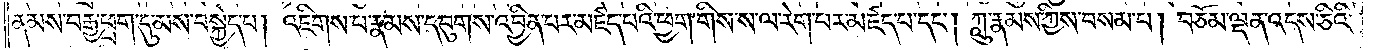ནམས་བརྒྱ་ཕྲག་དུ་མས་བསྐྱེད་པ། འཇིགས་པ་རྣམས་དབུགས་འབྱིན་པར་མཛད་པའི་ཕྱག་གིས་ས་ལ་རེག་པར་མཛད་པ་དང༌། ཀླུ་རྣམས་ཀྱིས་བསམ་པ། བཅོམ་ལྡན་འདས་ཅིའི་
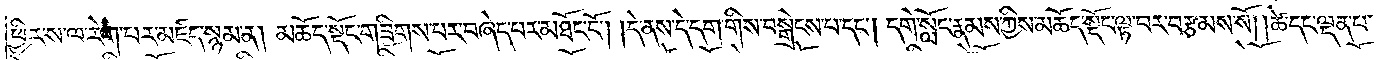ཕྱིར་ས་ལ་རེག་པར་མཛད་སྙམ་ན། མཆོད་སྡོང་གཟིགས་པར་བཞེད་པར་མཐོང་ངོ༌། །དེ་ནས་དེ་དག་གིས་བསྒྲེངས་པ་དང༌། དགེ་སློང་རྣམས་ཀྱིས་མཆོད་སྡོང་ལྟ་བར་བརྩམས་སོ། །ཚེ་དང་ལྡན་པ་
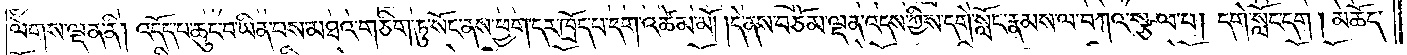ལེགས་ལྡན་ནི། འདོད་པ་ཆུང་བ་ཡིན་པས་མཐའ་གཅིག་ཏུ་སོང་ནས་ཕྱག་དར་ཁྲོད་པ་དག་འཚེམ་མོ། །དེ་ནས་བཅོམ་ལྡན་འདས་ཀྱིས་དགེ་སློང་རྣམས་ལ་བཀའ་སྩལ་པ། དགེ་སློང་དག །མཆོད་
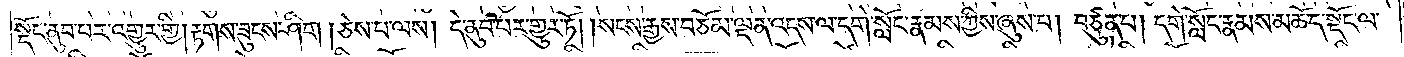སྡོང་ནུབ་པར་འགྱུར་གྱི། རྟགས་ཟུངས་ཤིག །ཅེས་པ་ལས། དེ་ནུབ་པར་གྱུར་ཏོ། །སངས་རྒྱས་བཅོམ་ལྡན་འདས་ལ་དགེ་སློང་རྣམས་ཀྱིས་ཞུས་པ། བཙུན་པ། དགེ་སློང་རྣམས་མཆོད་སྡོང་ལ་
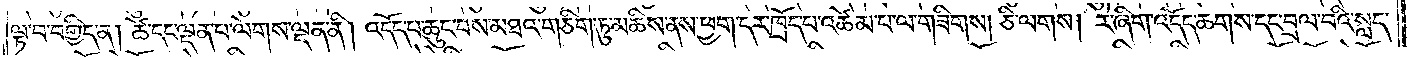ལྟ་བ་བགྱིད་ན། ཚེ་དང་ལྡན་པ་ལེགས་ལྡན་ནི། འདོད་པ་ཆུང་བས་མཐའ་གཅིག་ཏུ་མཆིས་ནས་ཕྱག་དར་ཁྲོད་པ་འཚེམ་པ་ལ་གཟིགས། ཅི་ལགས། རེ་ཞིག་འདོད་ཆགས་དང་བྲལ་བའི་སླད་
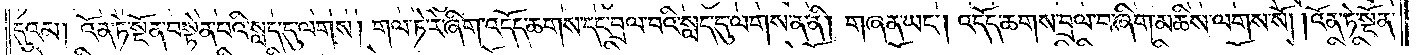དུའམ། འོན་ཏེ་སྔོན་བསྟེན་པའི་སླད་དུ་ལགས། གལ་ཏེ་རེ་ཞིག་འདོད་ཆགས་དང་བྲལ་བའི་སླད་དུ་ལགས་ན་ནི། །གཞན་ཡང༌། འདོད་ཆགས་བྲལ་བ་ཞིག་མཆིས་ལགས་སོ། །འོན་ཏེ་སྔོན་
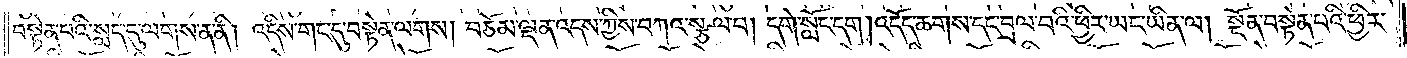བསྟེན་པའི་སླད་དུ་ལགས་ན་ནི། འདིས་གང་དུ་བསྟེན་ལགས། བཅོམ་ལྡན་འདས་ཀྱིས་བཀའ་སྩལ་པ། དགེ་སློང་དག །འདོད་ཆགས་དང་བྲལ་བའི་ཕྱིར་ཡང་ཡིན་ལ། སྔོན་བསྟེན་པའི་ཕྱིར་
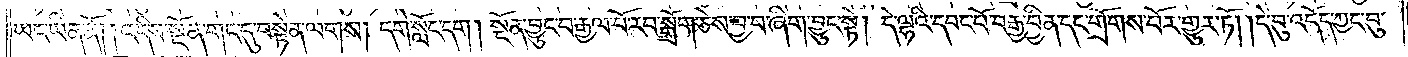ཡང་ཡིན་ནོ། །འདིས་སྔོན་གང་དུ་བསྟེན་ལགས། དགེ་སློང་དག། སྔོན་བྱུང་བ་རྒྱལ་པོ་རབ་སྒྲོག་ཅེས་བྱ་བ་ཞིག་བྱུང་སྟེ། དེ་ལྷའི་དབང་པོ་བརྒྱ་བྱིན་དང་གྲོགས་པོར་གྱུར་ཏོ། །དེ་བུ་འདོད་ཀྱང་བུ་
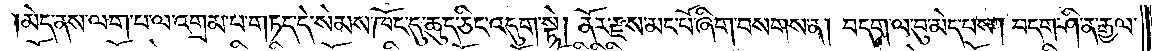།མེད་ནས་ལག་པ་ལ་འགྲམ་པ་གཏད་དེ་སེམས་ཁོང་དུ་ཆུད་ཅིང་འདུག་སྟེ། ནོར་རྫས་མང་པོ་ཞིག་བསགས་ན། བདག་ལ་བུ་མེད་པས། བདག་ཤི་ན་རྒྱལ་
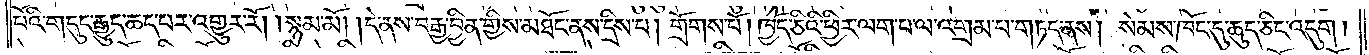པོའི་གདུང་རྒྱུད་ཆད་པར་འགྱུར་རོ། །སྙམ་མོ། །དེ་ནས་བརྒྱ་བྱིན་གྱིས་མཐོང་ནས་དྲིས་པ། གྲོགས་པོ། ཁྱོད་ཅིའི་ཕྱིར་ལག་པ་ལ་འགྲམ་པ་གཏད་ནས། སེམས་ཁོང་དུ་ཆུད་ཅིང་འདུག།
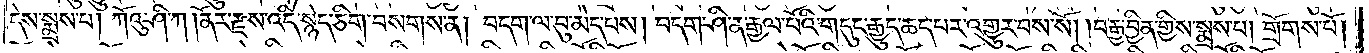དེས་སྨྲས་པ། ཀོའུ་ཤི་ཀ། ནོར་རྫས་འདི་སྙེད་ཅིག་བསགས་ན། བདག་ལ་བུ་མེད་པས། བདག་ཤི་ན་རྒྱལ་པོའི་གདུང་རྒྱུད་ཆད་པར་འགྱུར་བས་སོ། །བརྒྱ་བྱིན་གྱིས་སྨྲས་པ། གྲོགས་པོ།
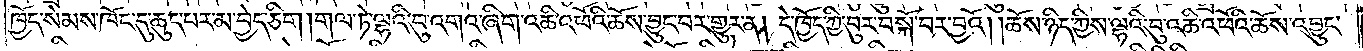ཁྱོད་སེམས་ཁོང་དུ་ཆུད་པར་མ་བྱེད་ཅིག །གལ་ཏེ་ལྷའི་བུ་འགའ་ཞིག་འཆི་འཕོའི་ཆོས་བྱུང་བར་གྱུར་ན། དེ་ཁྱོད་ཀྱི་བུར་བསྐོ་བར་བྱའོ། །ཆོས་ཉིད་ཀྱིས་ལྷའི་བུ་འཆི་འཕོའི་ཆོས་འབྱུང་
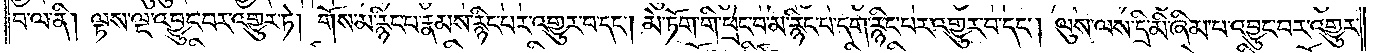བ་ལ་ནི། ལྟས་ལྔ་འབྱུང་བར་འགྱུར་ཏེ། གོས་མ་རྙིང་པ་རྣམས་རྙིང་པར་འགྱུར་བ་དང༌། མེ་ཏོག་གི་ཕྲེང་བ་མ་རྙིང་པ་དག་རྙིང་པར་འགྱུར་བ་དང༌། ལུས་ལས་དྲི་མི་ཞིམ་པ་འབྱུང་བར་འགྱུར་
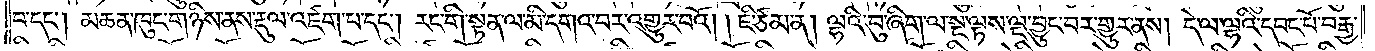བ་དང༌། མཆན་ཁུང་གཉིས་ནས་རྡུལ་འཛག་པ་དང༌། རང་གི་སྟན་ལ་མི་དགའ་བར་འགྱུར་བའོ། །ཇི་ཙམ་ན། ལྷའི་བུ་ཞིག་ལ་སྔ་ལྟས་ལྔ་བྱུང་བར་གྱུར་ནས། དེ་ལ་ལྷའི་དབང་པོ་བརྒྱ་
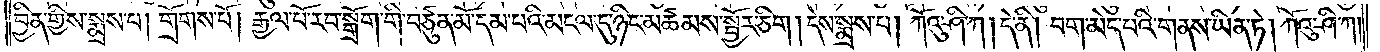བྱིན་གྱིས་སྨྲས་པ། གྲོགས་པོ། རྒྱལ་པོ་རབ་སྒྲོག་གི་བཙུན་མོ་དམ་པའི་མངལ་དུ་ཉིང་མཚམས་སྦྱོར་ཅིག །དེས་སྨྲས་པ། ཀོའུ་ཤི་ཀ། དེ་ནི། བག་མེད་པའི་གནས་ཡིན་ཏེ། ཀོའུ་ཤི་ཀ།
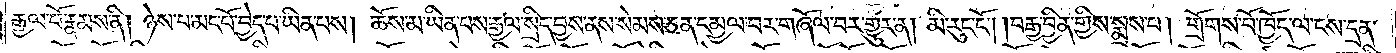རྒྱལ་པོ་རྣམས་ནི། ཉེས་པ་མང་པོ་བྱེད་པ་ཡིན་པས། ཆོས་མ་ཡིན་པས་རྒྱལ་སྲིད་བྱས་ནས་སེམས་ཅན་དམྱལ་བར་གཞོལ་བར་གྱུར་ན། མི་རུང་ངོ༌། །བརྒྱ་བྱིན་གྱིས་སྨྲས་པ། གྲོགས་པོ་ཁྱོད་ལ་ངས་དྲན་
